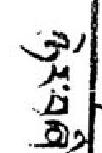ཉེར་བཞི་
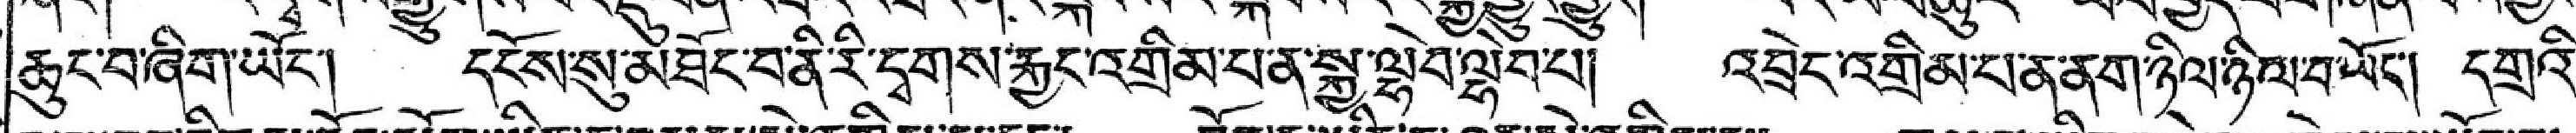ཆུང་བ་ཞིག་ཡོང་། དངོས་སུ་མཐོང་བ་ནི་རི་དྭགས་རྐྱང་འགྲིམ་པ་ན་སྐྱ་ལྷེབ་ལྷེབ་པ། འབྲེང་འགྲིམ་པ་ན་ནག་ཉིལ་ཉིལ་བ་ཡོང་། དགྲའི་
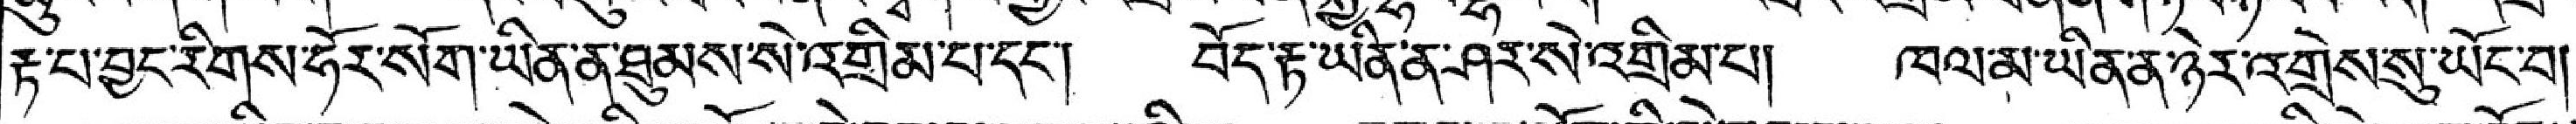རྟ་པ་བྱང་རིགས་ཧོར་སོག་ཡིན་ན་ཐུམས་སེ་འགྲིམ་པ་དང་། བོད་རྟ་ཡིན་ན་ཤར་སེ་འགྲིམ་པ། ཁལ་མི་ཡིན་ན་ཉེར་འགྲེས་སུ་ཡོང་བ།
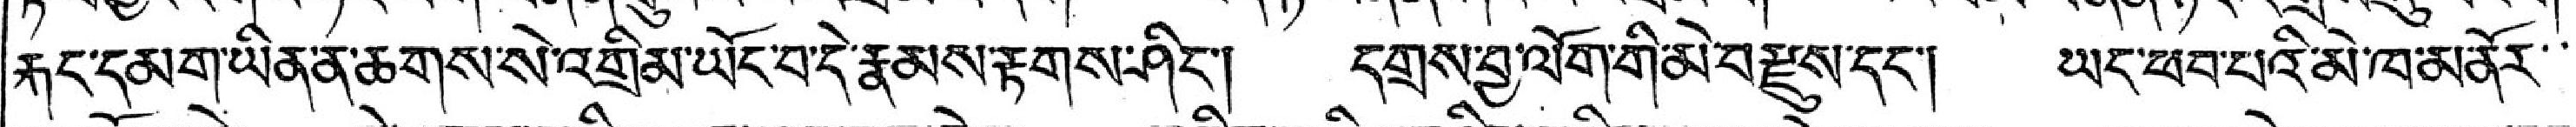རྐང་དམག་ཡིན་ན་ཆགས་སེ་འགྲིམ་ཡོང་བ་དེ་རྣམས་རྟགས་ཤིང་། དགྲས་བྱ་ལོག་གི་མེ་བརྫུས་དང་། ཡོད་ཕབ་པའི་མེ་ཁ་མནོར་་་
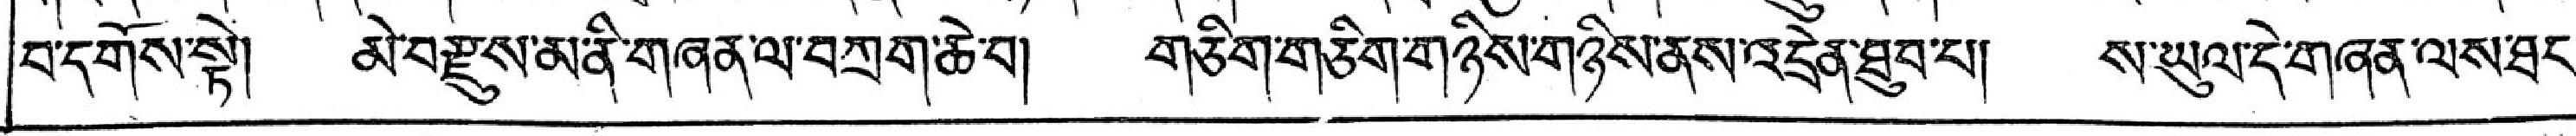བ་དགོས་སྟེ། མེ་བརྫུས་མ་ནི་གཞན་ལ་བཀྲག་ཆེ་བ། གཅིག་གཅིག་གཉིས་གཉིས་ནས་འདྲེན་ཐུབ་པ། ས་ཡུལ་དེ་གཞན་ལས་ཐང་
